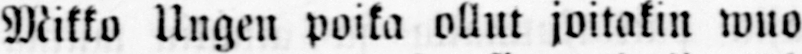Mikko Ungen poika ollut joitakin wuo-
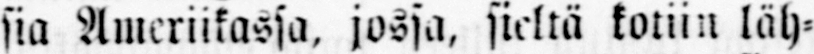sia Ameriikassa, jossa, sieltä kotiin läh-
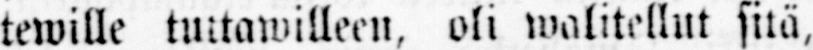tewille tutttawilleen, oli walitellut sitä,
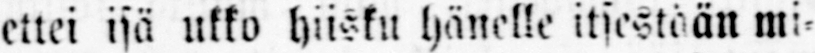ettei isä ukko hiisku hänelle itsestään mi-
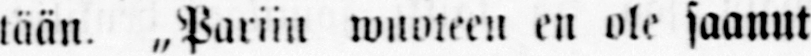tään. „Pariin wuoteen en ole saanut
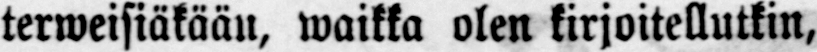terweisiäkään, waikka olen kirjoitellutkin,
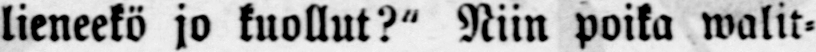lieneekö jo kuollut?" Niin poika walit-
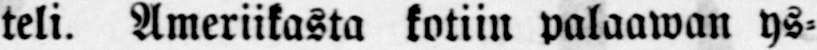teli. Ameriikasta kotiin palaawan ys-
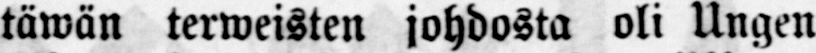täwän terweisten johdosta oli Ungen
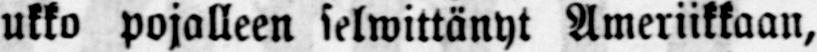ukko pojalleen selwittänyt Ameriikkaan,
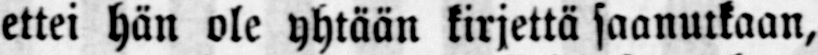ettei hän ole yhtään kirjettä saanutkaan,
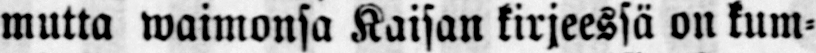mutta waimonsa Kaisan kirjeessä on kum-
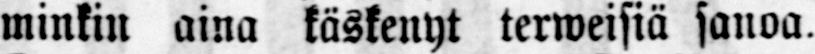minkin aina käskenyt terweisiä sanoa.
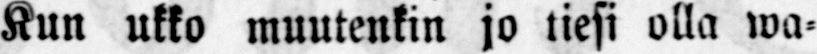Kun ukko muutenkin jo tiesi olla wä-
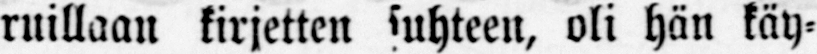ruillan kirjetten suhteen, oli hän käy-
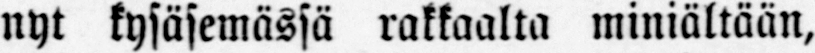nyt kysäsemässä rakkaalta miniältään,
